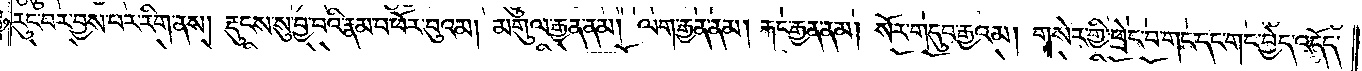རུང་བར་བྱས་པར་རིག་ནས། རྡུངས་སུ་བྱ་བའི་རྣམ་པ་ཕོར་བུའམ། མགུལ་རྒྱན་ནམ། ལག་རྒྱན་ནམ། རྐང་རྒྱན་ནམ། སོར་གདུབ་རྒྱའམ། གསེར་གྱི་ཕྲེང་བ་གང་དང་གང་བྱེད་འདོད་
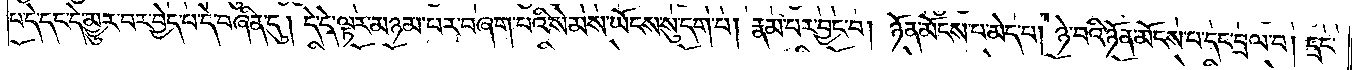པ་དེ་དང་དེ་མྱུར་བར་བྱེད་པ་དེ་བཞིན་དུ། དེ་དེ་ལྟར་མཉམ་པར་བཞག་པའི་སེམས་ཡོངས་སུ་དག་པ། རྣམ་པར་བྱང་བ། ཉོན་མོངས་པ་མེད་པ། ཉེ་བའི་ཉོན་མོངས་པ་དང་བྲལ་བ། དྲང་
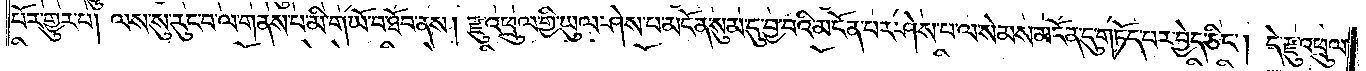པོར་གྱུར་པ། ལས་སུ་རུང་བ་ལ་གནས་པ་མི་གཡོ་བ་ཐོབ་ནས། རྫུ་འཕྲུལ་གྱི་ཡུལ་ཤེས་པ་མངོན་སུམ་དུ་བྱ་བའི་མངོན་པར་ཤེས་པ་ལ་སེམས་མངོན་དུ་གཏོད་པར་བྱེད་ཅིང༌། དེ་རྫུ་འཕྲུལ་
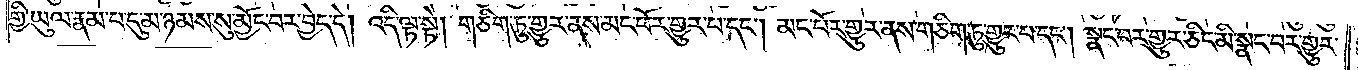གྱི་ཡུལ་རྣམ་པ་དུ་མ་ཉམས་སུ་མྱོང་བར་བྱེད་དེ། འདི་ལྟ་སྟེ། གཅིག་ཏུ་གྱུར་ནས་མང་པོར་གྱུར་པ་དང༌། མང་པོར་གྱུར་ནས་གཅིག་ཏུ་གྱུར་པ་དང༌། སྣང་བར་གྱུར་ཅིང་མི་སྣང་བར་གྱུར་
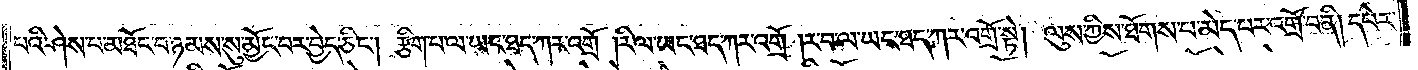པའི་ཤེས་པ་མཐོང་བ་ཉམས་སུ་མྱོང་བར་བྱེད་ཅིང༌། རྩིག་པ་ལ་ཡང་ཐད་ཀར་འགྲོ་།རི་ལ་ཡང་ཐད་ཀར་འགྲོ་།ར་བ་ལ་ཡང་ཐད་ཀར་འགྲོ་སྟེ། ལུས་ཀྱིས་ཐོགས་པ་མེད་པར་འགྲོ་བ་ནི། དཔེར་
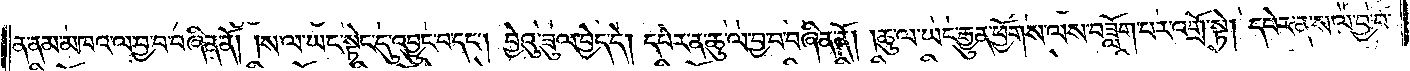ན་ནམ་མཁའ་ལ་བྱ་བ་བཞིན་ནོ། །ས་ལ་ཡང་སྟེང་དུ་འབྱུང་བ་དང༌། བྱེའུ་ཟུལ་བྱེད་དེ། དཔེར་ན་ཆུ་ལ་བྱ་བ་བཞིན་ནོ། །ཆུ་ལ་ཡང་རྒྱུན་ཕྱོགས་ལས་བཟློག་པར་འགྲོ་སྟེ། དཔེར་ན་ས་ལ་བྱ་བ་
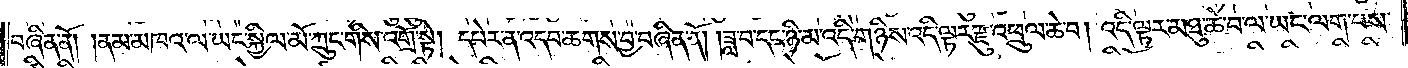བཞིན་ནོ། །ནམ་མཁའ་ལ་ཡང་སྐྱིལ་མོ་ཀྲུང་གིས་འགྲོ་སྟེ། དཔེར་ན་འདབ་ཆགས་བྱ་བཞིན་ནོ། །ཟླ་བ་དང་ཉི་མ་འདི་གཉིས་འདི་ལྟར་རྫུ་འཕྲུལ་ཆེ་བ། འདི་ལྟར་མཐུ་ཆེ་བ་ལ་ཡང་ལག་པས་
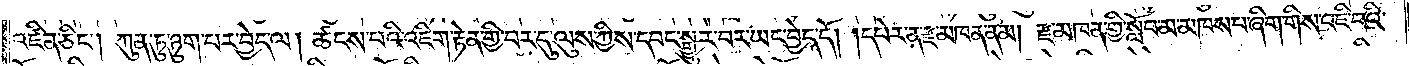འཛིན་ཅིང༌། ཀུན་ཏུ་ཉུག་པར་བྱེད་ལ། ཚངས་པའི་འཇིག་རྟེན་གྱི་བར་དུ་ལུས་ཀྱིས་དབང་སྒྱུར་བར་ཡང་བྱེད་དོ། །དཔེར་ན་རྫ་མཁན་ནམ། རྫ་མཁན་གྱི་སློབ་མ་མཁས་པ་ཞིག་གིས་འཇི་བའི་
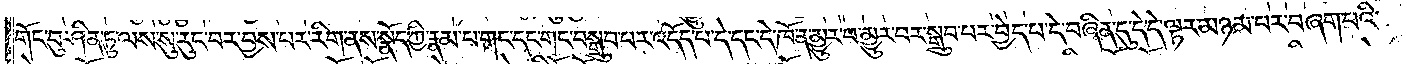གོང་བུ་ཤིན་ཏུ་ལས་སུ་རུང་བར་བྱས་པར་རིག་ནས་སྣོད་ཀྱི་རྣམ་པ་གང་དང་གང་བསྒྲུབ་པར་འདོད་པ་དེ་དང་དེ་ཁོ་ན་མྱུར་བ་མྱུར་བར་སྒྲུབ་པར་བྱེད་པ་དེ་བཞིན་དུ་དེ་དེ་ལྟར་མཉམ་པར་བཞག་པའི་
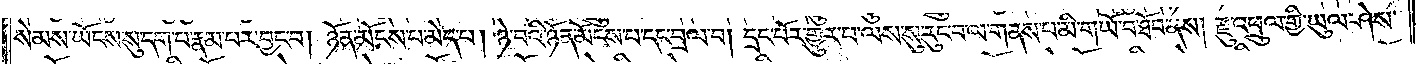སེམས་ཡོངས་སུ་དག་པ་རྣམ་པར་བྱང་བ། ཉོན་མོངས་པ་མེད་པ། ཉེ་བའི་ཉོན་མོངས་པ་དང་བྲལ་བ། དྲང་པོར་གྱུར་པ་ལས་སུ་རུང་བ་ལ་གནས་པ་མི་གཡོ་བ་ཐོབ་ནས། རྫུ་འཕྲུལ་གྱི་ཡུལ་ཤེས་
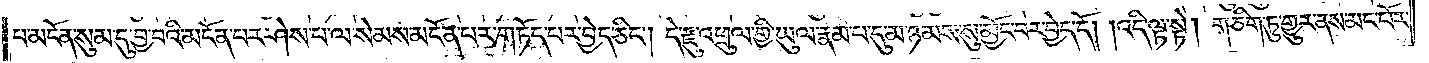པ་མངོན་སུམ་དུ་བྱ་བའི་མངོན་པར་ཤེས་པ་ལ་སེམས་མངོན་པར་གཏོད་པར་བྱེད་ཅིང༌། དེ་རྫུ་འཕྲུལ་གྱི་ཡུལ་རྣམ་པ་དུ་མ་ཉམས་སུ་མྱོང་བར་བྱེད་དོ། །འདི་ལྟ་སྟེ། གཅིག་ཏུ་གྱུར་ནས་མང་པོར་
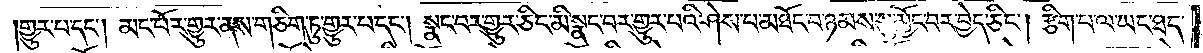།གྱུར་པ་དང༌། མང་པོར་གྱུར་ནས་གཅིག་ཏུ་གྱུར་པ་དང༌། སྣང་བར་གྱུར་ཅིང་མི་སྣང་བར་གྱུར་པའི་ཤེས་པ་མཐོང་བ་ཉམས་སུ་མྱོང་བར་བྱེད་ཅིང༌། རྩིག་པ་ལ་ཡང་ཐད་
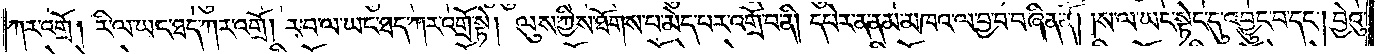ཀར་འགྲོ། རི་ལ་ཡང་ཐད་ཀར་འགྲོ། ར་བ་ལ་ཡང་ཐད་ཀར་འགྲོ་སྟེ། ལུས་ཀྱིས་ཐོགས་པ་མེད་པར་འགྲོ་བ་ནི། དཔེར་ན་ནམ་མཁའ་ལ་བྱ་བ་བཞིན་ནོ། །ས་ལ་ཡང་སྟེང་དུ་འབྱུང་བ་དང༌། བྱེའུ་
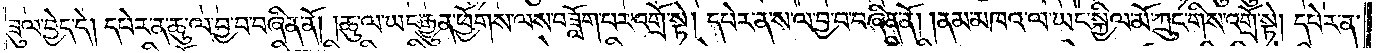ཟུལ་བྱེད་དེ། དཔེར་ན་ཆུ་ལ་བྱ་བ་བཞིན་ནོ། །ཆུ་ལ་ཡང་རྒྱུན་ཕྱོགས་ལས་བཟློག་པར་འགྲོ་སྟེ། དཔེར་ན་ས་ལ་བྱ་བ་བཞིན་ནོ། །ནམ་མཁའ་ལ་ཡང་སྐྱིལ་མོ་ཀྲུང་གིས་འགྲོ་སྟེ། དཔེར་ན་
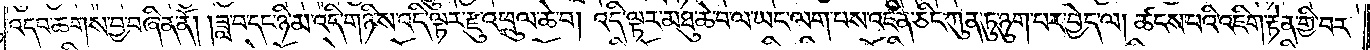འདབ་ཆགས་བྱ་བཞིན་ནོ། །ཟླ་བ་དང་ཉི་མ་འདི་གཉིས་འདི་ལྟར་རྫུ་འཕྲུལ་ཆེ་བ། འདི་ལྟར་མཐུ་ཆེ་བ་ལ་ཡང་ལག་པས་འཛིན་ཅིང་ཀུན་ཏུ་ཉུག་པར་བྱེད་ལ། ཚངས་པའི་འཇིག་རྟེན་གྱི་བར་
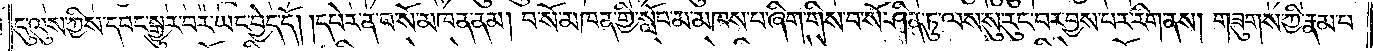དུ་ལུས་ཀྱིས་དབང་སྒྱུར་བར་ཡང་བྱེད་དོ། །དཔེར་ན་བ་སོ་མཁན་ནམ། བ་སོ་མཁན་གྱི་སློབ་མ་མཁས་པ་ཞིག་གིས་བ་སོ་ཤིན་ཏུ་ལས་སུ་རུང་བར་བྱས་པར་རིག་ནས། གཟུགས་ཀྱི་རྣམ་པ་
